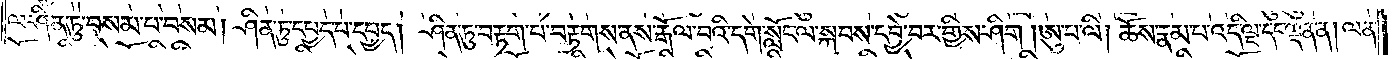ལ་ཤིན་ཏུ་བསམ་པ་བསམ། ཤིན་ཏུ་དཔྱད་པ་དཔྱད། ཤིན་ཏུ་བརྟག་པ་བརྟགས་ནས་རྒོལ་བའི་དགེ་སློང་ལ་སྐབས་དབྱེ་བར་གྱིས་ཤིག །ཨུ་པ་ལི། ཆོས་རྣམ་པ་འདི་ལྔ་དང་ལྡན་ན། ལན་
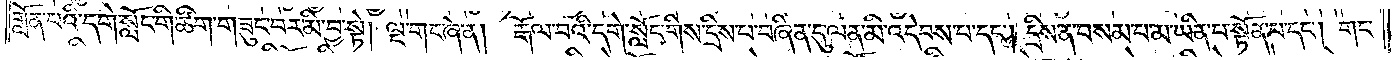གློན་པའི་དགེ་སློང་གི་ཚིག་གཟུང་བར་མི་བྱ་སྟེ། ལྔ་གང་ཞེ་ན། རྒོལ་བའི་དགེ་སློང་གིས་དྲིས་པ་བཞིན་དུ་ལན་མི་འདེབས་པ་དང༌། དྲིས་ན་བསམ་པ་མ་ཡིན་པ་སྟོན་པ་དང༌། གང་
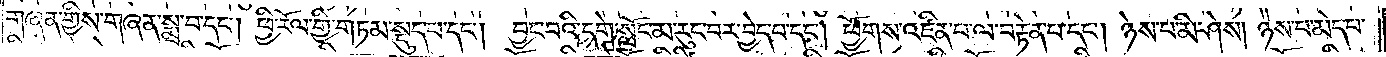གཞན་གྱིས་གཞན་སྨྲ་བ་དང༌། ཕྱི་རོལ་གྱི་གཏམ་སྡུད་པ་དང༌། བྱང་བའི་དགེ་སློང་མ་རུང་བར་བྱེད་པ་དང༌། ཕྱོགས་འཛིན་པ་ལ་བརྟེན་པ་དང༌། ཉེས་པ་མི་ཤེས། ཉེས་པ་མེད་པ་
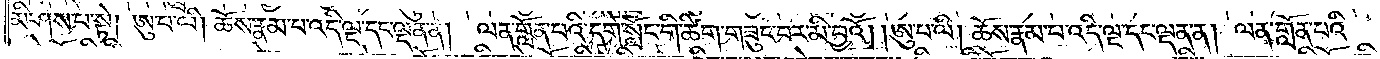མི་ཤེས་པ་སྟེ། ཨུ་པ་ལི། ཆོས་རྣམ་པ་འདི་ལྔ་དང་ལྡན་ན། ལན་གློན་པའི་དགེ་སློང་གི་ཚིག་གཟུང་བར་མི་བྱའོ། །ཨུ་པ་ལི། ཆོས་རྣམ་པ་འདི་ལྔ་དང་ལྡན་ན། ལན་གློན་པའི་
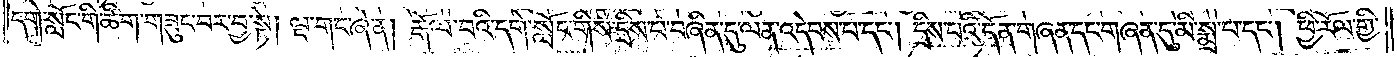དགེ་སློང་གི་ཚིག་གཟུང་བར་བྱ་སྟེ། ལྔ་གང་ཞེ་ན། རྒོལ་བའི་དགེ་སློང་གིས་དྲིས་པ་བཞིན་དུ་ལན་འདེབས་པ་དང༌། དྲིས་པའི་དོན་གཞན་དང་གཞན་དུ་མི་སྨྲ་བ་དང༌། ཕྱི་རོལ་གྱི་
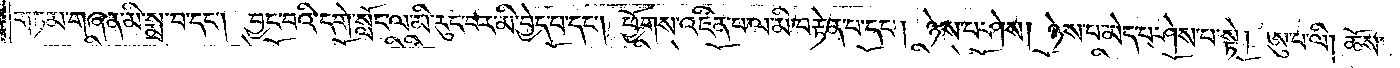གཏམ་གཞན་མི་སྨྲ་བ་དང༌། བྱང་བའི་དགེ་སློང་ལ་མི་རུང་བར་མི་བྱེད་པ་དང༌། ཕྱོགས་འཛིན་པ་ལ་མི་བརྟེན་པ་དང༌། ཉེས་པ་ཤེས། ཉེས་པ་མེད་པ་ཤེས་པ་སྟེ། ཨུ་པ་ལི། ཆོས་
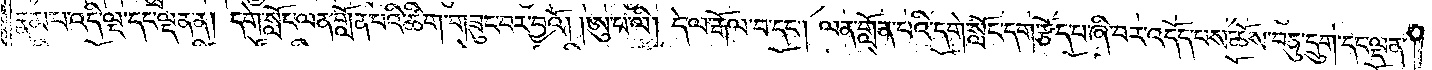རྣམ་པ་འདི་ལྔ་དང་ལྡན་ན། དགེ་སློང་ལན་གློན་པའི་ཚིག་གཟུང་བར་བྱའོ། །ཨུ་པ་ལི། དེ་ལ་རྒོལ་བ་དང༌། ལན་གློན་པའི་དགེ་སློང་དག་རྩོད་པ་ཞི་བར་འདོད་པས་ཆོས་བཅུ་དྲུག་དང་ལྡན་
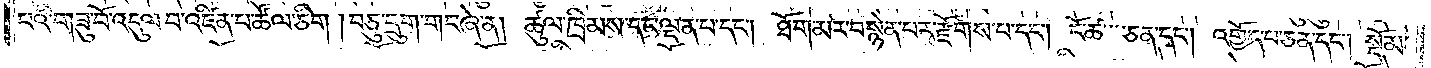པའི་གཟུ་བོ་འདུལ་བ་འཛིན་པ་ཚོལ་ཅིག །བཅུ་དྲུག་གང་ཞེ་ན། ཚུལ་ཁྲིམས་དང་ལྡན་པ་དང༌། ཐོག་མར་བསྙེན་པར་རྫོགས་པ་དང༌། ངོ་ཚ་ཅན་དང༌། འགྱོད་པ་ཅན་དང༌། སྡོམ་
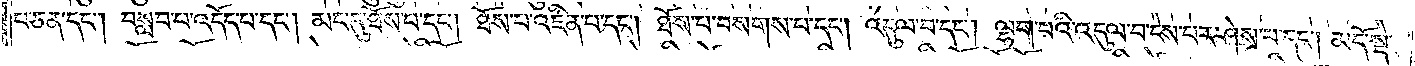པ་ཅན་དང༌། བསླབ་པ་འདོད་པ་དང༌། མང་དུ་ཐོས་པ་དང༌། ཐོས་པ་འཛིན་པ་དང༌། ཐོས་པ་བསགས་པ་དང༌། འདུལ་བ་དང༌། ལྷག་པའི་འདུལ་བ་ངེས་པར་ཤེས་པ་དང༌། མདོ་སྡེ་
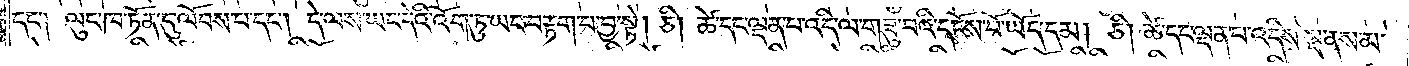དང༌། ལུང་ཁ་ཏོན་དུ་ལོབས་པ་དང༌། དེ་ལས་ཡང་དེའི་འོག་ཏུ་ཡང་བརྟག་པ་བྱ་སྟེ། ཅི། ཚེ་དང་ལྡན་པ་འདི་ལ་གཟུ་བའི་དངོས་པོ་ཡོད་དམ། ཅི། ཚེ་དང་ལྡན་པ་འདིས་སྔ་ནས་མ་
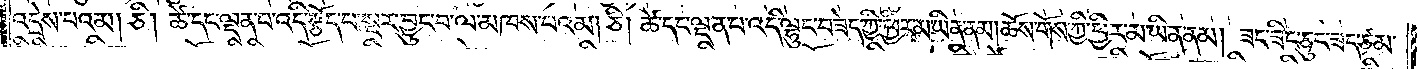འདྲེས་པའམ། ཅི། ཚེ་དང་ལྡན་པ་འདི་རྩོད་པ་སྔར་བྱུང་བ་ལ་མཁས་པའམ། ཅི། ཚེ་དང་ལྡན་པ་འདི་ལྷུང་བཟེད་ཀྱི་ཕྱིར་མ་ཡིན་ནམ། ཆོས་གོས་ཀྱི་ཕྱིར་མ་ཡིན་ན། ཟང་ཟིང་ཅུང་ཟད་ཙམ་
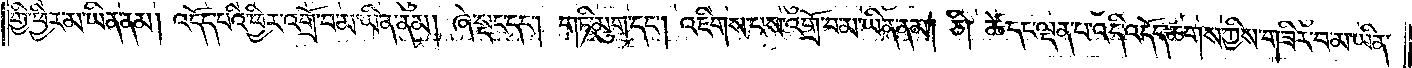གྱི་ཕྱིར་མ་ཡིན་ནམ། འདོད་པའི་ཕྱིར་འགྲོ་བ་མ་ཡིན་ནམ། ཞེ་སྡང་དང༌། གཏི་མུག་དང༌། འཇིགས་པས་འགྲོ་བ་མ་ཡིན་ནམ། ཅི། ཚེ་དང་ལྡན་པ་འདི་འདོད་ཆགས་ཀྱིས་གཟིར་བ་མ་ཡིན་
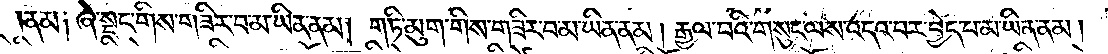ནམ། ཞེ་སྡང་གིས་གཟིར་བ་མ་ཡིན་ནམ། གཏི་མུག་གིས་གཟིར་བ་མ་ཡིན་ནམ། རྒྱལ་བའི་གསུང་ལས་འདའ་བར་བྱེད་པ་མ་ཡིན་ནམ།
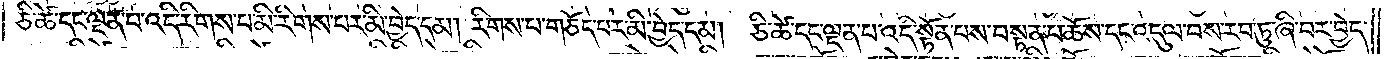ཅི་ཚེ་དང་ལྡན་པ་འདི་རིགས་པ་མི་རིགས་པར་མི་བྱད་དམ། རིགས་པ་གཅོད་པར་མི་བྱེད་དམ། ཅི་ཚེ་དང་ལྡན་པ་འདི་སྟོན་པས་བསྟན་པ་ཆོས་དང་འདུལ་བས་རབ་ཏུ་ཞི་བར་བྱེད་
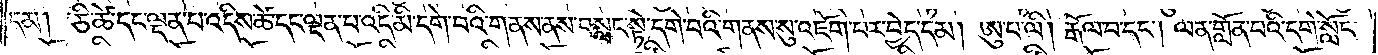དམ། ཅི་ཚེ་དང་ལྡན་པ་འདིས་ཚེ་དང་ལྡན་པ་འདི་མི་དགེ་བའི་གནས་ནས་བསླང་སྟེ་དགེ་བའི་གནས་སུ་འཇོག་པར་བྱེད་དམ། ཨུ་པ་ལི། རྒོལ་བ་དང༌། ལན་གློན་པའི་དགེ་སློང་
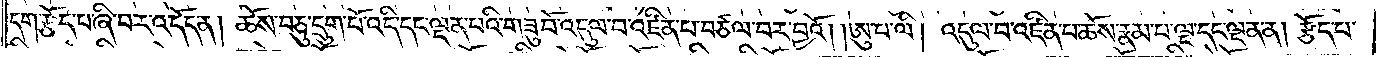དག་རྩོད་པ་ཞི་བར་འདོད་ན། ཆོས་བཅུ་དྲུག་པོ་འདི་དང་ལྡན་པའི་གཟུ་བོ་འདུལ་བ་འཛིན་པ་བཙལ་བར་བྱའོ། །ཨུ་པ་ལི། འདུལ་བ་འཛིན་པ་ཆོས་རྣམ་པ་ལྔ་དང་ལྡན་ན། རྩོད་པ་
